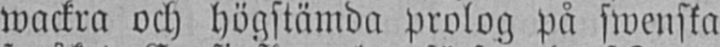wackra och högstämda prolog på swenska
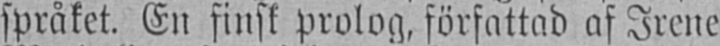språket. En finsk prolog, författad af Irene
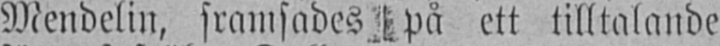Mendelin, framsades på ett tilltalande
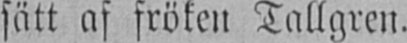sätt af fröken Tallgren.
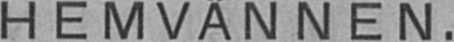HEMVÄNNEN.
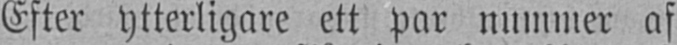Efter ytterligare ett par nummer af
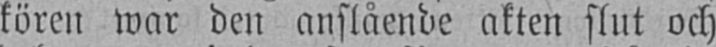kören war den anslående akten slut och
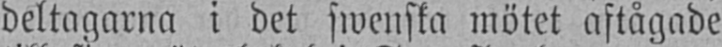deltagarna i det swenska mötet aftågade
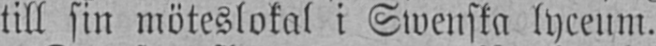till sin möteslokal i Swenska lyceum.
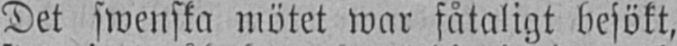Det swenska mötet war fåtaligt besökt,
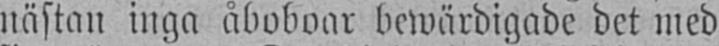nästan inga åboboar bewärdigade det med
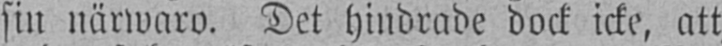sin närwaro. Det hindrade dock icke, att
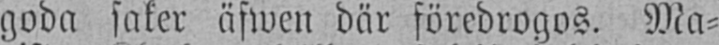goda saker äfwen där föredrogos. Ma-
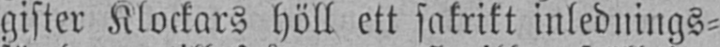gister Klockars höll ett sakrikt inlednings-
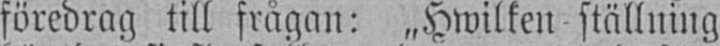föredrag till frågan: „Hwilken ställning
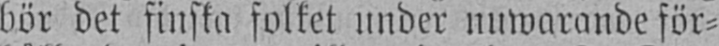bör det finska folket under nuwarande för-
